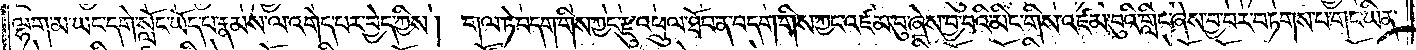ལྷག་མ་ཡང་དགེ་སློང་ཡོད་པ་རྣམས་ལ་འགེད་པར་བྱེད་ཀྱིས། གལ་ཏེ་བདག་གིས་ཀྱང་རྫུ་འཕྲུལ་ཐོབ་ན་བདག་གིས་ཀྱང་འཛམ་བུ་ཞེས་བྱ་བའི་མིང་གིས་འཛམ་བུའི་གླིང་ཞེས་བྱ་བར་བཏགས་པ་གང་ཡིན་
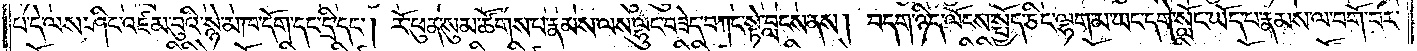པ་དེ་ལས་ཤིང་འཛམ་བུའི་སྙེ་མ་ཁ་དོག་དང་དྲི་དང༌། རོ་ཕུན་སུམ་ཚོགས་པ་རྣམས་ལས་ལྷུང་བཟེད་བཀང་སྟེ་བླངས་ནས། བདག་ཉིད་ལོངས་སྤྱོད་ཅིང་ལྷག་མ་ཡང་དགེ་སློང་ཡོད་པ་རྣམས་ལ་བགོ་བར་
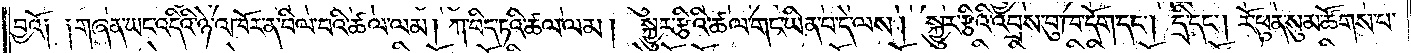བྱའོ༑ ༑གཞན་ཡང་འདིའི་ཉེ་འཁོར་ན་བིལ་བའི་ཚལ་ལམ། ཀ་པིད་ཏའི་ཚལ་ལམ། སྐྱུར་རྩིའི་ཚལ་གང་ཡིན་པ་དེ་ལས། སྐྱུར་རྩིའི་འབྲས་བུ་ཁ་དོག་དང༌། དྲི་དང༌། རོ་ཕུན་སུམ་ཚོགས་པ་
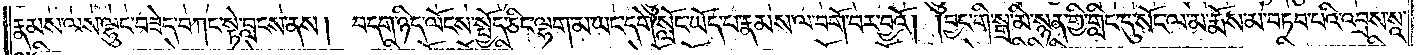རྣམས་ལས་ལྷུང་བཟེད་བཀང་སྟེ་བླངས་ནས། བདག་ཉིད་ལོངས་སྤྱོད་ཅིང་ལྷག་མ་ཡང་དགེ་སློང་ཡོད་པ་རྣམས་ལ་བགོ་བར་བྱའོ། །བྱང་གི་སྒྲ་མི་སྙན་གྱི་གླིང་དུ་སོང་ལ་མ་རྨོས་མ་བཏབ་པའི་འབྲས་སཱ་
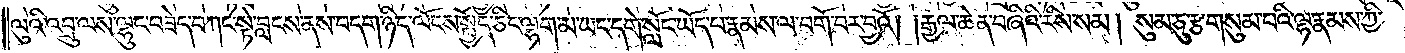ལུའི་འབྲུ་ལས་ལྷུང་བཟེད་བཀང་སྟེ་བླངས་ནས་བདག་ཉིད་ལོངས་སྤྱོད་ཅིང་ལྷག་མ་ཡང་དགེ་སློང་ཡོད་པ་རྣམས་ལ་བགོ་བར་བྱའོ། །རྒྱལ་ཆེན་བཞིའི་རིས་སམ། སུམ་ཅུ་རྩ་གསུམ་པའི་ལྷ་རྣམས་ཀྱི་
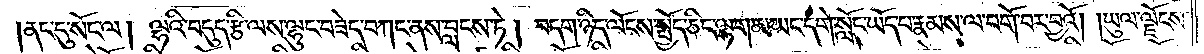ནང་དུ་སོང་ལ། ལྷའི་བདུད་རྩི་ལས་ལྷུང་བཟེད་བཀང་ནས་བླངས་ཏེ། བདག་ཉིད་ལོངས་སྤྱོད་ཅིང་ལྷག་མ་ཡང་དགེ་སློང་ཡོད་པ་རྣམས་ལ་བགོ་བར་བྱའོ། །ཡུལ་ལྗོངས་
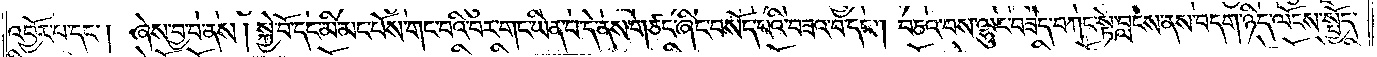འབྱོར་པ་དང༌། ཞེས་བྱ་བ་ནས། སྐྱེ་བོ་དང་མི་མང་པོས་གང་བའི་བར་གང་ཡིན་པ་དེ་ནས་གཙང་ཞིང་བསོད་པའི་བཟའ་བ་དང༌། བཅའ་བས་ལྷུང་བཟེད་བཀང་སྟེ་བླངས་ནས་བདག་ཉིད་ལོངས་སྤྱོད་
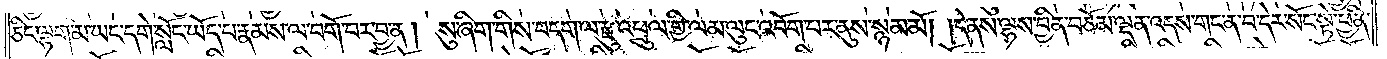ཅིང་ལྷག་མ་ཡང་དགེ་སློང་ཡོད་པ་རྣམས་ལ་བགོ་བར་བྱ་ན། སུ་ཞིག་གིས་བདག་ལ་རྫུ་འཕྲུལ་གྱི་ལམ་ལུང་འབོག་པར་ནུས་སྙམ་མོ། །དེ་ནས་ལྷས་བྱིན་བཅོམ་ལྡན་འདས་གང་ན་བ་དེར་སོང་སྟེ་ཕྱིན་
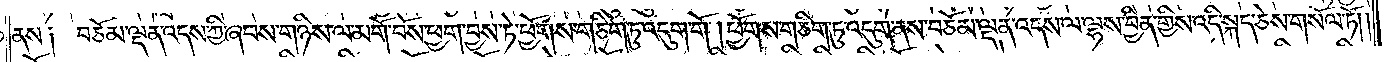ནས༑ བཅོམ་ལྡན་འདས་ཀྱི་ཞབས་གཉིས་ལ་མགོ་བོས་ཕྱག་བྱས་ཏེ་ཕྱོགས་གཅིག་ཏུ་འདུག་གོ །ཕྱོགས་གཅིག་ཏུ་འདུག་ནས་བཅོམ་ལྡན་འདས་ལ་ལྷས་བྱིན་གྱིས་འདི་སྐད་ཅེས་གསོལ་ཏོ། །
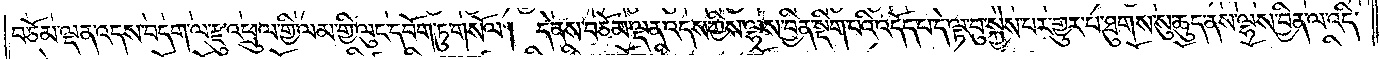བཅོམ་ལྡན་འདས་བདག་ལ་རྫུ་འཕྲུལ་གྱི་ལམ་གྱི་ལུང་དབོག་ཏུ་གསོལ། དེ་ནས་བཅོམ་ལྡན་འདས་ཀྱིས་ལྷས་བྱིན་སྡིག་པའི་འདོད་པ་དེ་ལྟ་བུ་སྐྱེས་པར་གྱུར་པ་ཐུགས་སུ་ཆུད་ནས་ལྷས་བྱིན་ལ་འདི་
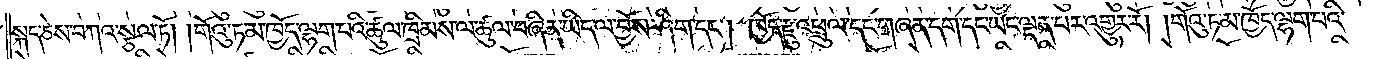སྐད་ཅེས་བཀའ་སྩལ་ཏོ། །གོའུ་ཏ་མ་ཁྱོད་ལྷག་པའི་ཚུལ་ཁྲིམས་ལ་ཚུལ་བཞིན་ཡིད་ལ་བྱོས་ཤིག་དང༌། ཁྱོད་རྫུ་འཕྲུལ་དང་གཞན་དག་དང་ཡང་ལྡན་པར་འགྱུར་རོ། །གོའུ་ཏ་མ་ཁྱོད་ལྷག་པའི་
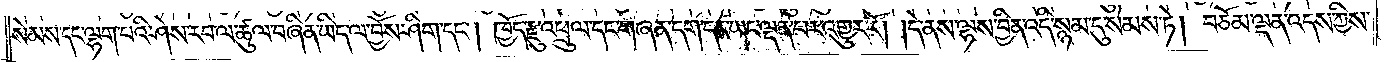སེམས་དང་ལྷག་པའི་ཤེས་རབ་ལ་ཚུལ་བཞིན་ཡིད་ལ་བྱོས་ཤིག་དང༌། ཁྱོད་རྫུ་འཕྲུལ་དང་གཞན་དག་དང་ཡང་ལྡན་པར་འགྱུར་རོ། །དེ་ནས་ལྷས་བྱིན་འདི་སྙམ་དུ་སེམས་ཏེ། བཅོམ་ལྡན་འདས་ཀྱིས་
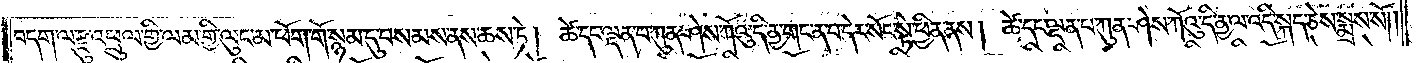བདག་ལ་རྫུ་འཕྲུལ་གྱི་ལམ་གྱི་ལུང་མ་ཕོག་གོ་སྙམ་དུ་བསམས་ནས་ཆས་ཏེ། ཚེ་དང་ལྡན་པ་ཀུན་ཤེས་ཀོའུ་དི་ནྱ་གང་ན་བ་དེར་སོང་སྟེ་ཕྱིན་ནས། ཚེ་དང་ལྡན་པ་ཀུན་ཤེས་ཀོའུ་དི་ནྱ་ལ་འདི་སྐད་ཅེས་སྨྲས་སོ། །
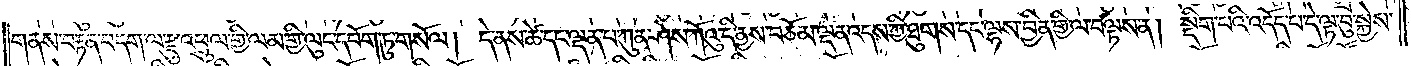གནས་བརྟན་བདག་ལ་རྫུ་འཕྲུལ་གྱི་ལམ་གྱི་ལུང་དཔོག་ཏུ་གསོལ། དེ་ནས་ཚེ་དང་ལྡན་པ་ཀུན་ཤེས་ཀོའུ་དི་ནྱས་བཅོམ་ལྡན་འདས་ཀྱི་ཐུགས་དང་ལྷས་བྱིན་གྱི་ལ་བལྟས་ན། སྡིག་པའི་འདོད་པ་དེ་ལྟ་བུ་སྐྱེས་
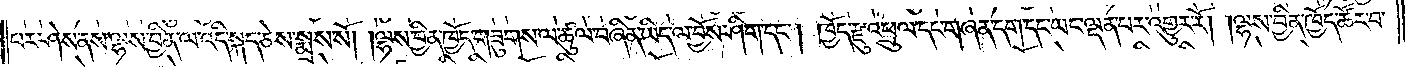པར་ཤེས་ནས་ལྷས་བྱིན་ལ་འདི་སྐད་ཅེས་སྨྲས་སོ། །ལྷས་བྱིན་ཁྱོད་གཟུགས་ལ་ཚུལ་བཞིན་ཡིད་ལ་བྱོས་ཤིག་དང༌། ཁྱོད་རྫུ་འཕྲུལ་དང་གཞན་དག་དང་ཡང་ལྡན་པར་འགྱུར་རོ། །ལྷས་བྱིན་ཁྱོད་ཚོར་བ་
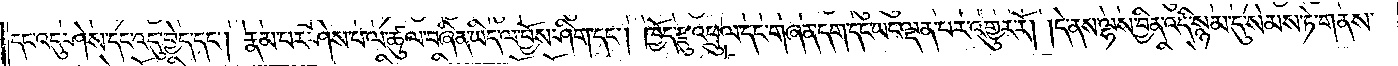དང་འདུ་ཤེས་དང་འདུ་བྱེད་དང༌། རྣམ་པར་ཤེས་པ་ལ་ཚུལ་བཞིན་ཡིད་ལ་བྱོས་ཤིག་དང༌། ཁྱོད་རྫུ་འཕྲུལ་དང་གཞན་དག་དང་ཡང་ལྡན་པར་འགྱུར་རོ། །དེ་ནས་ལྷས་བྱིན་འདི་སྙམ་དུ་སེམས་ཏེ་གནས་
